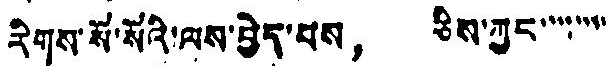རིགས་སོ་སོའི་ལས་བྱེད་པས， ཅིས་ཀྱང་་་་་་་་
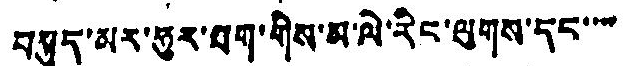བསྟུད་མར་ཧུར་ཐག་གིས་མ་ལེ་རིང་ལུགས་དང་་་་་
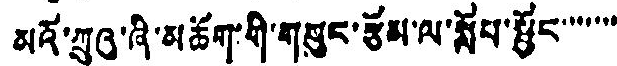མའོ་ཀྲུའུ་ཞི་མཆོག་གི་གསུང་རྩོམ་ལ་སློབ་སྦྱོང་་་་་་་་
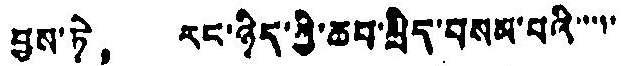བྱས་ཏེ， རང་ཉིད་ཀྱི་ཆབ་སྲིད་བསམ་པའི་་་་་
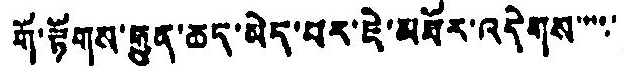གོ་རྟོགས་རྒྱུན་ཆད་མེད་པར་ཇེ་མཐོར་འདེགས་་་་་་
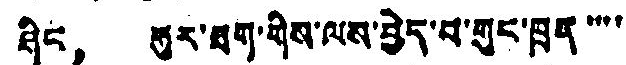ཤིང， ཧུར་ཐག་གིས་ལས་བྱེད་པ་གུང་ཁྲན་་་་
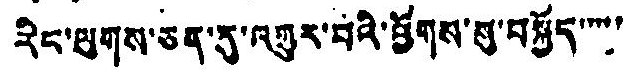རིང་ལུགས་ཅན་དུ་འགྱུར་བའི་ཕྱོགས་སུ་བསྐྱོད་་་་་་
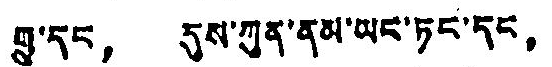གྲུ་དང， དུས་ཀུན་ནམ་ཡང་ཏང་དང，
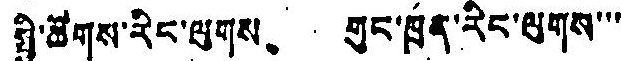སྤྱི་ཚོགས་རིང་ལུགས、 གུང་ཁྲན་རིང་ལུགས་་་་
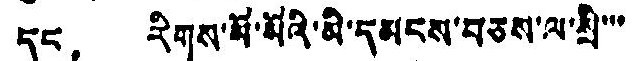དང， རིགས་སོ་སོའི་མི་དམངས་བཅས་ལ་སྲི་་་་
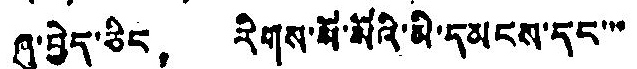ཞུ་བྱེད་ཅིང， རིགས་སོ་སོའི་མི་དམངས་དང་་་
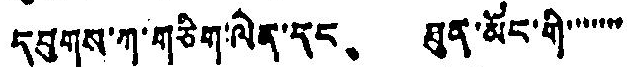དབུགས་ཀ་གཅིག་ལེན་དང、 ཐུན་མོང་གི་་་་་་་
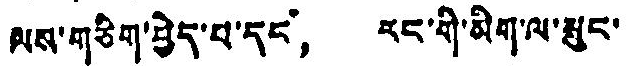ལས་གཅིག་བྱེད་པ་དང， རང་གི་མིག་ལ་སྲུང་
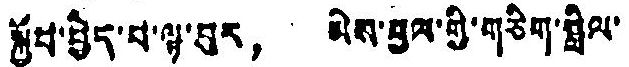སྐྱོབ་བྱེད་པ་ལྟ་བུར， མེས་བྱལ་གྱི་གཅིག་སྒྲིལ་
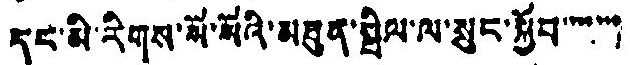དང་མི་རིགས་སོ་སོའི་མཐུན་སྤྲིལ་ལ་སྲུང་སྐྱོབ་་་་་་་་
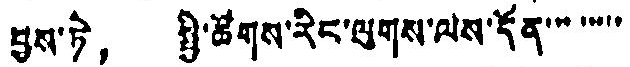བྱས་ཏེ， སྤྱི་ཚོགས་རིང་ལུགས་ལས་དོན་་་་་་་་
